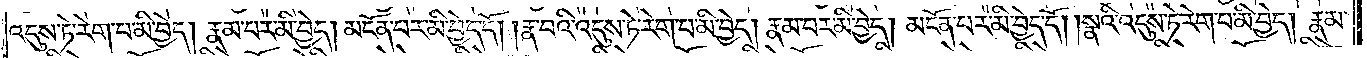འདུས་ཏེ་རེག་པ་མི་བྱེད། རྣམ་པར་མི་བྱེད། མངོན་པར་མི་བྱེད་དོ། །རྣ་བའི་འདུས་ཏེ་རེག་པ་མི་བྱེད། རྣམ་པར་མི་བྱེད། མངོན་པར་མི་བྱེད་དོ། སྣའི་འདུས་ཏེ་རེག་པ་མི་བྱེད། རྣམ་
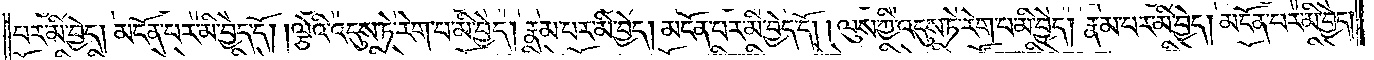པར་མི་བྱེད། མངོན་པར་མི་བྱེད་དོ། །ལྕེའི་འདུས་ཏེ་རེག་པ་མི་བྱེད། རྣམ་པར་མི་བྱེད། མངོན་པར་མི་བྱེད་དོ། །ལུས་ཀྱི་འདུས་ཏེ་རེག་པ་མི་བྱེད། རྣམ་པར་མི་བྱེད། མངོན་པར་མི་བྱེད་
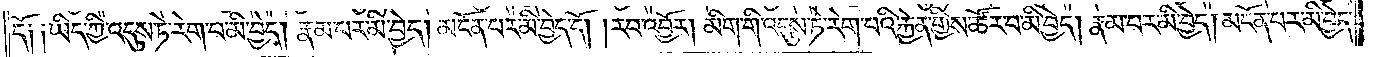དོ། །ཡིད་ཀྱི་འདུས་ཏེ་རེག་པ་མི་བྱེད། རྣམ་པར་མི་བྱེད། མངོན་པར་མི་བྱེད་དོ། །རབ་འབྱོར། མིག་གི་འདུས་ཏེ་རེག་པའི་རྐྱེན་གྱིས་ཚོར་བ་མི་བྱེད། རྣམ་པར་མི་བྱེད། མངོན་པར་མི་བྱེད་
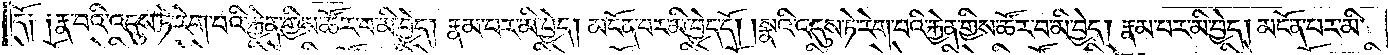དོ༑ ༑རྣ་བའི་འདུས་ཏེ་རེག་པའི་རྐྱེན་གྱིས་ཚོར་བ་མི་བྱེད། རྣམ་པར་མི་བྱེད། མངོན་པར་མི་བྱེད་དོ། །སྣའི་འདུས་ཏེ་རེག་པའི་རྐྱེན་གྱིས་ཚོར་བ་མི་བྱེད། རྣམ་པར་མི་བྱེད། མངོན་པར་མི་
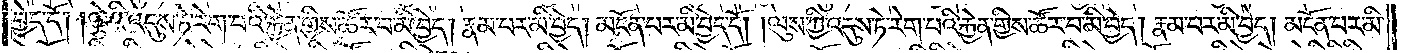བྱེད་དོ། །ལྕེའི་འདུས་ཏེ་རེག་པའི་རྐྱེན་གྱིས་ཚོར་བ་མི་བྱེད། རྣམ་པར་མི་བྱེད། མངོན་པར་མི་བྱེད་དོ། །ལུས་ཀྱི་འདུས་ཏེ་རེག་པའི་རྐྱེན་གྱིས་ཚོར་བ་མི་བྱེད། རྣམ་པར་མི་བྱེད། མངོན་པར་མི་
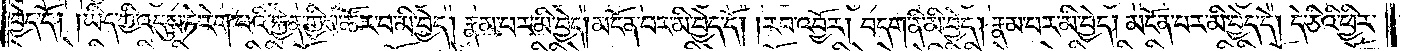བྱེད་དོ། །ཡིད་ཀྱི་འདུས་ཏེ་རེག་པའི་རྐྱེན་གྱིས་ཚོར་བ་མི་བྱེད། རྣམ་པར་མི་བྱེད། མངོན་པར་མི་བྱེད་དོ། །རབ་འབྱོར། བདག་ནི་མི་བྱེད། རྣམ་པར་མི་བྱེད། མངོན་པར་མི་བྱེད་དོ། དེ་ཅིའི་ཕྱིར་
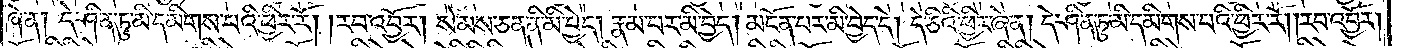ཞེ་ན། དེ་ཤིན་ཏུ་མི་དམིགས་པའི་ཕྱིར་རོ། །རབ་འབྱོར། སེམས་ཅན་ནི་མི་བྱེད། རྣམ་པར་མི་བྱེད། མངོན་པར་མི་བྱེད་དེ། དེ་ཅིའི་ཕྱིར་ཞེ་ན། དེ་ཤིན་ཏུ་མི་དམིགས་པའི་ཕྱིར་རོ། །རབ་འབྱོར།
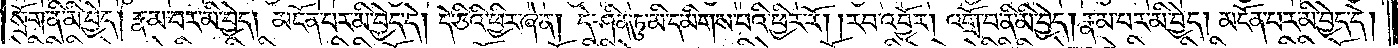སྲོག་ནི་མི་བྱེད། རྣམ་པར་མི་བྱེད། མངོན་པར་མི་བྱེད་དེ། དེ་ཅིའི་ཕྱིར་ཞེ་ན། དེ་ཤིན་ཏུ་མི་དམིགས་པའི་ཕྱིར་རོ། །རབ་འབྱོར། འགྲོ་བ་ནི་མི་བྱེད། རྣམ་པར་མི་བྱེད། མངོན་པར་མི་བྱེད་དེ།
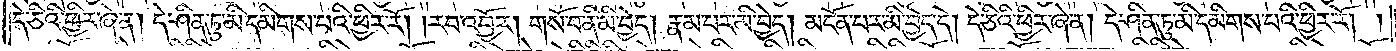དེ་ཅིའི་ཕྱིར་ཞེ་ན། དེ་ཤིན་ཏུ་མི་དམིགས་པའི་ཕྱིར་རོ། །རབ་འབྱོར། གསོ་བ་ནི་མི་བྱེད། རྣམ་པར་མི་བྱེད། མངོན་པར་མི་བྱེད་དེ། དེ་ཅིའི་ཕྱིར་ཞེ་ན། དེ་ཤིན་ཏུ་མི་དམིགས་པའི་ཕྱིར་རོ། །
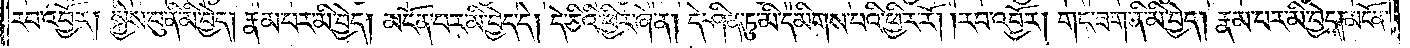རབ་འབྱོར། སྐྱེས་བུ་ནི་མི་བྱེད། རྣམ་པར་མི་བྱེད། མངོན་པར་མི་བྱེད་དེ། དེ་ཅིའི་ཕྱིར་ཞེ་ན། དེ་ཤིན་ཏུ་མི་དམིགས་པའི་ཕྱིར་རོ། །རབ་འབྱོར། གང་ཟག་ནི་མི་བྱེད། རྣམ་པར་མི་བྱེད། མངོན་
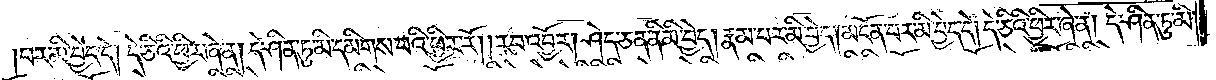པར་མི་བྱེད་དེ། དེ་ཅིའི་ཕྱིར་ཞེ་ན། དེ་ཤིན་ཏུ་མི་དམིགས་པའི་ཕྱིར་རོ། །རབ་འབྱོར། ཤེད་ཅན་ནི་མི་བྱེད། རྣམ་པར་མི་བྱེད། མངོན་པར་མི་བྱེད་དེ། དེ་ཅིའི་ཕྱིར་ཞེ་ན། དེ་ཤིན་ཏུ་མི་
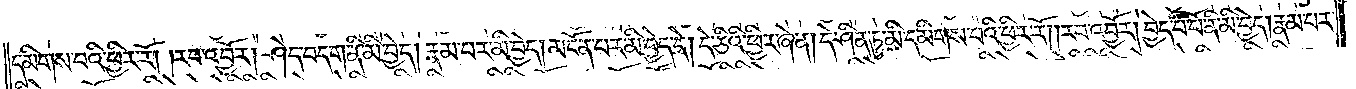དམིགས་པའི་ཕྱིར་རོ། །རབ་འབྱོར། ཤེད་བདག་ནི་མི་བྱེད། རྣམ་པར་མི་བྱེད། མངོན་པར་མི་བྱེད་དེ། དེ་ཅིའི་ཕྱིར་ཞེ་ན། དེ་ཤིན་ཏུ་མི་དམིགས་པའི་ཕྱིར་རོ། །རབ་འབྱོར། བྱེད་པ་པོ་ནི་མི་བྱེད། རྣམ་པར་
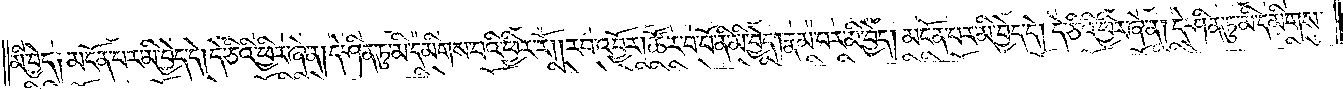མི་བྱེད། མངོན་པར་མི་བྱེད་དོ། །དེ་ཅིའི་ཕྱིར་ཞེ་ན། དེ་ཤིན་ཏུ་མི་དམིགས་པའི་ཕྱིར་རོ། །རབ་འབྱོར། ཚོར་བ་པོ་ནི་མི་བྱེད། རྣམ་པར་མི་བྱེད། མངོན་པར་མི་བྱེད་དེ། དེ་ཅིའི་ཕྱིར་ཞེ་ན། དེ་ཤིན་ཏུ་མི་དམིགས་
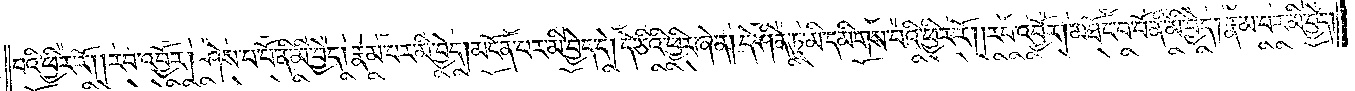པའི་ཕྱིར་རོ། །རབ་འབྱོར། ཤེས་པ་པོ་ནི་མི་བྱེད། རྣམ་པར་མི་བྱེད། མངོན་པར་མི་བྱེད་དེ། དེ་ཅིའི་ཕྱིར་ཞེ་ན། དེ་ཤིན་ཏུ་མི་དམིགས་པའི་ཕྱིར་རོ། །རབ་འབྱོར། མཐོང་བ་པོ་ནི་མི་བྱེད། རྣམ་པར་མི་བྱེད་
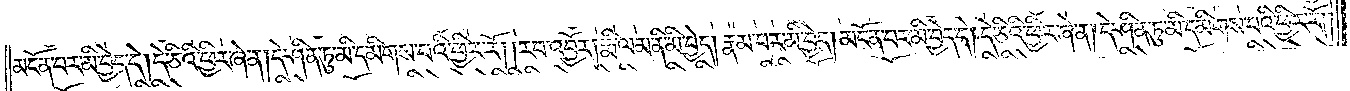མངོན་པར་མི་བྱེད་དེ། དེ་ཅིའི་ཕྱིར་ཞེ་ན། དེ་ཤིན་ཏུ་མི་དམིགས་པའི་ཕྱིར་རོ། །རབ་འབྱོར། རྨི་ལམ་ནི་མི་བྱེད། རྣམ་པར་མི་བྱེད། མངོན་པར་མི་བྱེད་དེ། དེ་ཅིའི་ཕྱིར་ཞེ་ན། དེ་ཤིན་ཏུ་མི་དམིགས་པའི་ཕྱིར་རོ། །
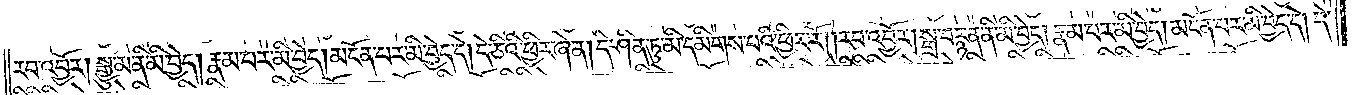རབ་འབྱོར། སྒྱུ་མ་ནི་མི་བྱེད། རྣམ་པར་མི་བྱེད། མངོན་པར་མི་བྱེད་དེ། དེ་ཅིའི་ཕྱིར་ཞེ་ན། དེ་ཤིན་ཏུ་མི་དམིགས་པའི་ཕྱིར་རོ། །རབ་འབྱོར། སྒྲ་བརྙན་ནི་མི་བྱེད། རྣམ་པར་མི་བྱེད། མངོན་པར་མི་བྱེད་དེ། དེ་
